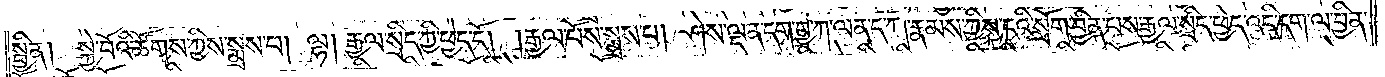སྦྱིན། སྐྱེ་བོའི་ཚོགས་ཀྱིས་སྨྲས་པ། ལྷ། རྒྱལ་སྲིད་ཀྱི་ཕྱེད་དོ། །རྒྱལ་པོས་སྨྲས་པ། ཤེས་ལྡན་དག་བྱ་ཀ་ལན་ད་ཀ་རྣམས་ཀྱིས་ངའི་སྲོག་བྱིན་པས་རྒྱལ་སྲིད་ཕྱེད་འདི་དག་ལ་བྱིན་
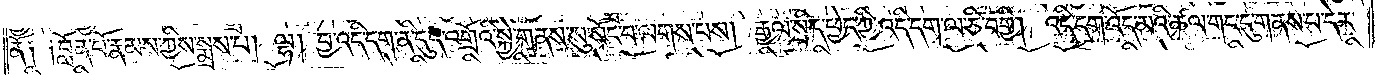ནོ༑ ༑བློན་པོ་རྣམས་ཀྱིས་སྨྲས་པ། ལྷ། བྱ་འདི་དག་ནི་དུད་འགྲོའི་སྐྱེ་གནས་སུ་སོང་བ་ལགས་པས། རྒྱལ་སྲིད་ཕྱེད་ཀྱི་འདི་དག་ལ་ཅི་བགྱི། འདི་དག་འོད་མའི་ཚལ་གང་དུ་གནས་པ་དེར་
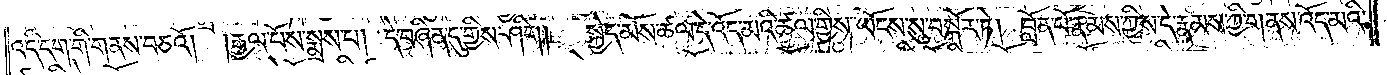འདི་དག་གི་གནས་བཅའོ། །རྒྱལ་པོས་སྨྲས་པ། དེ་བཞིན་དུ་གྱིས་ཤིག། སྐྱེད་མོས་ཚལ་དེ་འོད་མའི་ཚལ་གྱིས་ཡོངས་སུ་བསྐོར་ཏེ། བློན་པོ་རྣམས་ཀྱིས་དེ་རྣམས་ཀྱི་གནས་འོད་མའི་
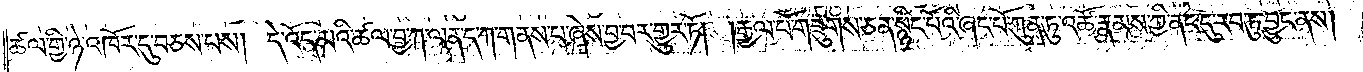ཚལ་གྱི་ཉེ་འཁོར་དུ་བཅས་པས། དེ་འོད་མའི་ཚལ་བྱ་ཀ་ལན་ད་ཀ་གནས་པ་ཞེས་བྱ་བར་གྱུར་ཏོ། །རྒྱལ་པོ་གཟུགས་ཅན་སྙིང་པོའི་ཞང་པོ་ཀུན་ཏུ་འཚོ་རྣམས་ཀྱི་ནང་དུ་རབ་ཏུ་བྱུང་ནས།
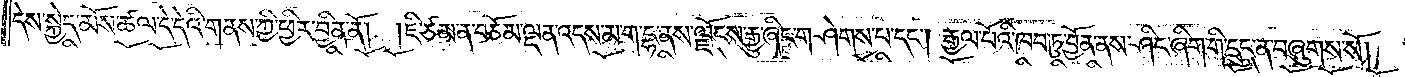དེས་སྐྱེད་མོས་ཚལ་དེ་དེའི་གནས་ཀྱི་ཕྱིར་བྱིན་ནོ། །ཇི་ཙམ་ན་བཅོམ་ལྡན་འདས་མ་ག་དྷ་ནས་ལྗོངས་རྒྱུ་ཞིང་གཤེགས་པ་དང༌། རྒྱལ་པོའི་ཁབ་ཏུ་བྱོན་ནས་ཤིང་ཞིག་གི་དྲུང་ན་བཞུགས་སོ། །
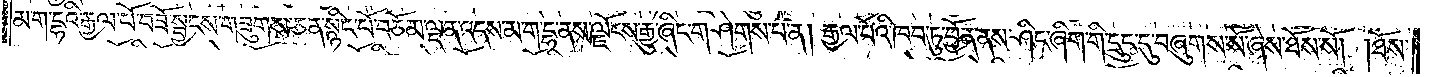མ་ག་དྷའི་རྒྱལ་པོ་བཟོ་སྦྱངས་གཟུགས་ཅན་སྙིང་པོ་བཅོམ་ལྡན་འདས་མ་ག་དྷ་ནས་ལྗོངས་རྒྱུ་ཞིང་གཤེགས་པ་ན། རྒྱལ་པོའི་ཁབ་ཏུ་བྱོན་ནས་ཤིང་ཞིག་གི་དྲུང་དུ་བཞུགས་སོ་ཞེས་ཐོས་སོ། །ཐོས་
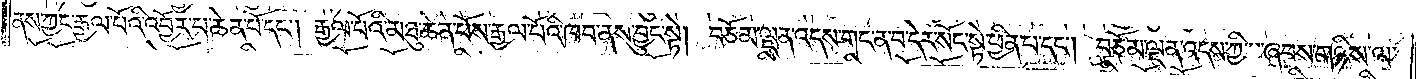ནས་ཀྱང་རྒྱལ་པོའི་འབྱོར་པ་ཆེན་པོ་དང༌། རྒྱལ་པོའི་མཐུ་ཆེན་པོས་རྒྱལ་པོའི་ཁབ་ནས་བྱུང་སྟེ། བཅོམ་ལྡན་འདས་གང་བ་དེར་སོང་སྟེ་ཕྱིན་པ་དང༌། བཅོམ་ལྡན་འདས་ཀྱི་ཞབས་གཉིས་ལ་
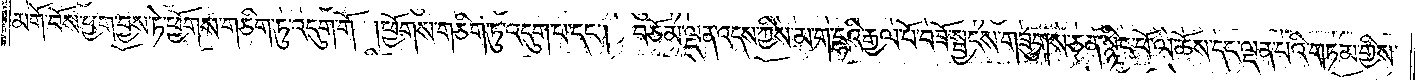མགོ་བོས་ཕྱག་བྱས་ཏེ་ཕྱོགས་གཅིག་ཏུ་འདུག་གོ །ཕྱོགས་གཅིག་ཏུ་འདུག་པ་དང༌། བཅོམ་ལྡན་འདས་ཀྱིས་མ་ག་དྷའི་རྒྱལ་པོ་བཟོ་སྦྱངས་གཟུགས་ཅན་སྙིང་པོ་ལ་ཆོས་དང་ལྡན་པའི་གཏམ་གྱིས་
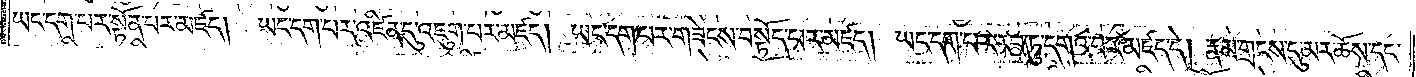ཡང་དག་པར་སྟོན་པར་མཛད། ཡང་དག་པར་འཛིན་དུ་འཇུག་པར་མཛད། ཡང་དག་པར་གཟེངས་བསྟོད་པར་མཛད། ཡང་དག་པར་རབ་ཏུ་དགའ་བར་མཛད་དེ། རྣམ་གྲངས་དུ་མར་ཆོས་དང་
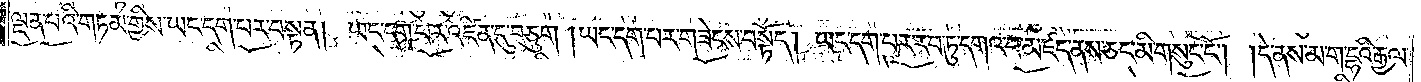ལྡན་པའི་གཏམ་གྱིས་ཡང་དག་པར་བསྟན། ཡང་དག་པར་འཛིན་དུ་བཅུག །ཡང་དག་པར་གཟེངས་བསྟོད། ཡང་དག་པར་རབ་ཏུ་དགའ་བ་མཛད་ནས་ཅང་མི་གསུང་ངོ༌། །དེ་ནས་མ་ག་དྷའི་རྒྱལ་
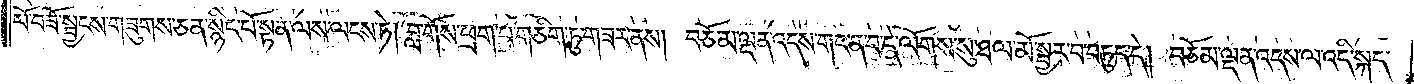པོ་བཟོ་སྦྱངས་གཟུགས་ཅན་སྙིང་པོ་སྟན་ལས་ལངས་ཏེ། བླ་གོས་ཕྲག་པ་གཅིག་ཏུ་གཟར་ནས། བཅོམ་ལྡན་འདས་གང་ན་བ་དེ་ལོགས་སུ་ཐལ་མོ་སྦྱར་བ་བཏུད་དེ། བཅོམ་ལྡན་འདས་ལ་འདི་སྐད་
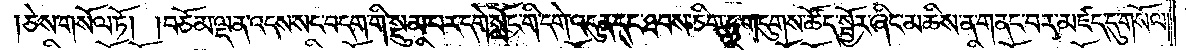ཅེས་གསོལ་ཏོ། །བཅོམ་ལྡན་འདས་སང་བདག་གི་སྡུམ་པར་དགེ་སློང་གི་དགེ་འདུན་དང་ཐབས་ཅིག་ཏུ་གདུགས་ཚོད་སྦྱོར་ཞིང་མཆིས་ན་གནང་བར་མཛད་དུ་གསོལ།
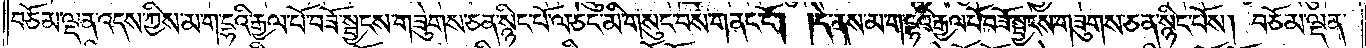བཅོམ་ལྡན་འདས་ཀྱིས་མ་ག་དྷའི་རྒྱལ་པོ་བཟོ་སྦྱངས་གཟུགས་ཅན་སྙིང་པོ་ལ་ཅང་མི་གསུང་བས་གནང་ངོ༌། །དེ་ནས་མ་ག་དྷའི་རྒྱལ་པོ་བཟོ་སྦྱངས་གཟུགས་ཅན་སྙིང་པོས། བཅོམ་ལྡན་
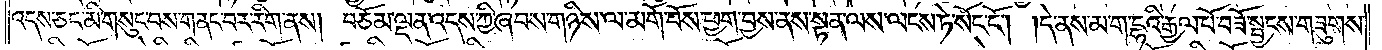འདས་ཅང་མི་གསུང་བས་གནང་བར་རིག་ནས། བཅོམ་ལྡན་འདས་ཀྱི་ཞབས་གཉིས་ལ་མགོ་བོས་ཕྱག་བྱས་ནས་སྟན་ལས་ལངས་ཏེ་སོང་ངོ༌། །དེ་ནས་མ་ག་དྷའི་རྒྱལ་པོ་བཟོ་སྦྱངས་གཟུགས་
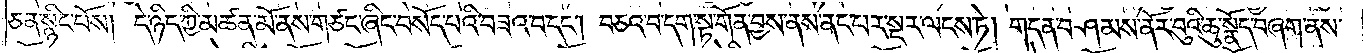ཅན་སྙིང་པོས། དེ་ཉིད་ཀྱི་མཚན་མོ་ནས་གཙང་ཞིང་བསོད་པའི་བཟའ་བ་དང༌། བཅའ་བ་དག་སྟ་གོན་བྱས་ནས་ནང་པར་སྔར་ལངས་ཏེ། གདན་བཤམས་ནོར་བུའི་ཆུ་སྣོད་བཞག་ནས་
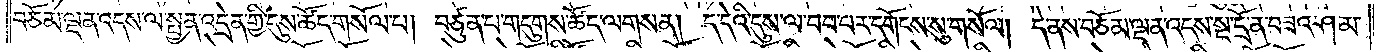བཅོམ་ལྡན་འདས་ལ་སྤྱན་འདྲེན་གྱི་དུས་ཚོད་གསོལ་པ། བཙུན་པ་གདུགས་ཚོད་ལགས་ན། ད་དེའི་དུས་ལ་བབ་པར་དགོངས་སུ་གསོལ། དེ་ནས་བཅོམ་ལྡན་འདས་སྔ་དྲོ་ན་བཟའ་ཤམ་
